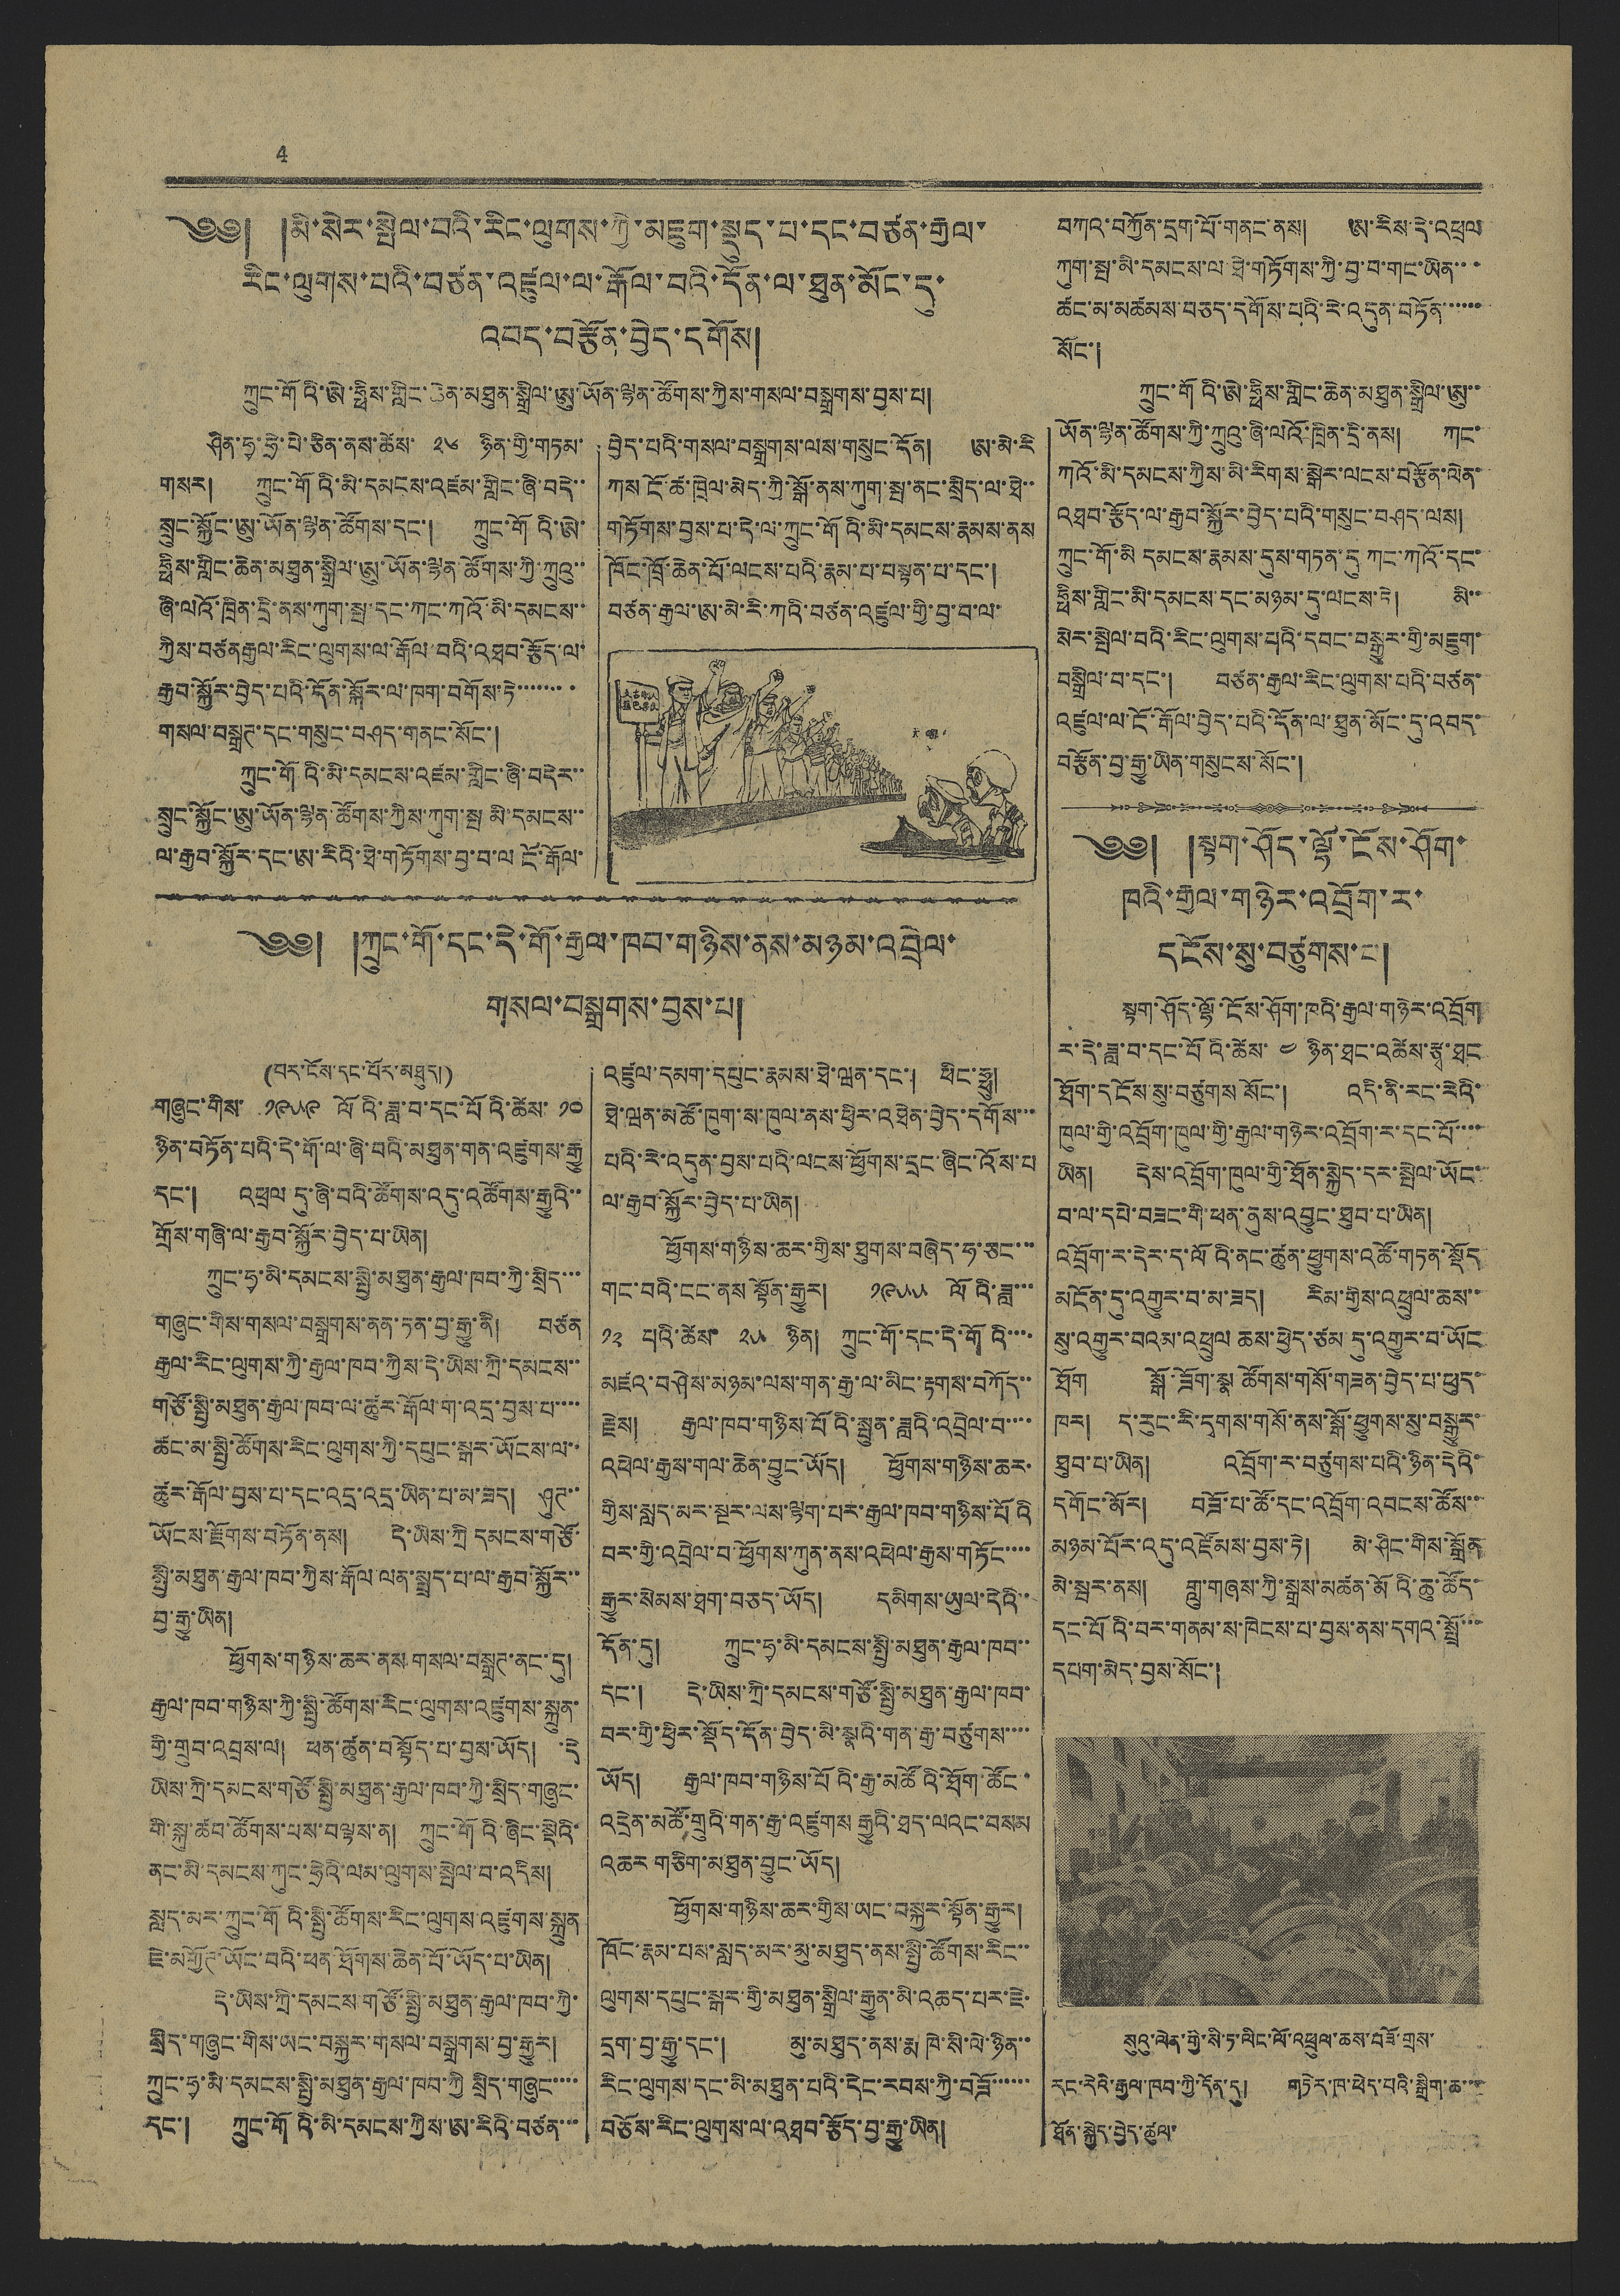4
༄༅། །མི་སེར་སྤེལ་བའི་རིང་ལུགས་ཀྱི་མཇུག་སྡུད་པ་དང་བཙན་རྒྱལ་
རིང་ལུགས་པའི་བཙན་འཛུལ་ལ་རྒོལ་བའི་དོན་ལ་ཐུན་མོང་དུ་
འབད་བརྩོན་བྱེད་དགོས།
ཀྲུང་གོའི་ཨེ་ཧྥིས་གླིང་ཆེན་མཐུན་སྒྲིལ་ཨུ་ཡོན་ལྷན་ཚོགས་ཀྱིས་གསལ་བསྒྲགས་བྱས་པ།
ཤིན་ཧྭ་ཧྲེ་པེ་ཅིན་ནས་ཚོས་ ༢༦ ཉིན་གྱི་གཏམ་
གསར། ཀྲུང་གོའི་མི་དམངས་འཛམ་གླིང་ཞི་བདེ་་
སྲུང་སྐྱོང་ཨུ་ཡོན་ལྷན་ཚོགས་དང་། ཀྲུང་གོའི་ཨེ་
ཧྥིས་གླིང་ཆེན་མཐུན་སྒྲིལ་ཨུ་ཡོན་ལྷན་ཚོགས་ཀྱི་ཀྲུའུ་་
ཞི་ལའོ་ཁྲིན་དྲི་ནས་ཀུག་སྤ་དང་ཀང་ཀའོ་མི་དམངས་་
ཀྱིས་བཙན རྒྱལ་རིང་ལུགས་ལ་རྒོལ་བའི་འཐབ་རྩོད་ལ་
རྒྱབ་སྐྱོར་བྱེད་པའི་དོན་སྐོར་ལ་ཁག་བགོས་ཏེ་་་་་་་་
གསལ་བསྒྲཊ་དང་གསུང་བཤད་གནང་སོང་།
ཀྲུང་གོའི་མི་དམངས་འཛམ་གླིང་ཞི་བདེར་་
སྲུང་སྐྱོང་ཨུ་ཡོན་ལྷན་ཚོགས་ཀྱིས་ཀུག་སྤ མི་དམངས་་
ལ་རྒྱབ་སྐྱོར་དང་ཨ་རིའི་ཐེ་གཏོགས་བྱ་བ་ལ ངོ་རྒོལ་
བྱེད་པའི་གསལ་བསྒྲགས་ལས་གསུང་དོན། ཨ་མེ་རི
ཀས ངོ་ཚ་ཁྲེལ་མེད་ཀྱི་སྒོ་ནས་ཀུག་སྤ་ནང་སྲིད་ལ་ཐེ་་
གཏོགས་བྱས་པ་དེ་ལ་ཀྲུང་གོའི་མི་དམངས་རྣམས་ནས
ཁོང་ཁྲོ་ཆེན་པོ་ལངས་པའི་རྣམ་པ་བསྟན་པ་དང་།
བཙན་རྒྱལ་ཨ་མེ་རི་ཀའི་བཙན་འཛུལ་གྱི་བྱ་བ་ལ་
བཀའ་བཀྱོན་དྲག་པོ་གནང་ནས། ཨ་རིས་དེ་འཕྲལ
ཀུག་སྤ་མི་དམངས་ལ་ཐེ་གཏོགས་ཀྱི་བྱ་བ་གང་ཡིན་་་
ཚང་མ་མཚམས་བཅད་དགོས་པའི་རེ་འདུན་བཏོན་་་་་་
སོང་།
ཀྲུང་གོའི་ཨེ་ཧྥིས་གླིང་ཆེན་མཐུན་སྒྲིལ་ཨུ་་
ཡོན་ལྷན་ཚོགས་ཀྱི་ཀྲུའུ་ཞི་ལའོ་ཁྲིན་དྲི་ནས། ཀང་
ཀའོ་མི་དམངས་ཀྱིས་མི་རིགས་སྒེར་ལངས་བརྩོན་ལེན་
འཐབ་རྩོད་ལ་རྒྱབ་སྐྱོར་བྱེད་པའི་གསུང་བཤད་ལས།
ཀྲུང་གོ་མི དམངས་རྣམས་དུས་གཏན་དུ ཀང་ཀའོ་དང་
ཧྥིས་གླིང་མི་དམངས་དང་མཉམ་དུ་ལངས་ཏེ། མི་་
སེར་སྤེལ་བའི་རིང་ལུགས་པའི་དབང་བསྒྱུར་གྱི་མཇུག་
བསྒྲིལ་བ་དང་། བཙན་རྒྱལ་རིང་ལུགས་པའི་བཙན་
འཛུལ་ལ་ངོ་རྒོལ་བྱེད་པའི་དོན་ལ་ཐུན་མོང་དུ་འབད་
བརྩོན་བྱ་རྒྱུ་ཡིན་གསུངས་སོང་།
༄༅། །ཀྲུང་གོ་དང་དེ་གོ་རྒྱལ་ཁབ་གཉིས་ནས་མཉམ་འབྲེལ་
གསལ་བསྒྲགས་བྱས་པ།
(པར་ངོས་དང་པོར་མཐུད།)
གཞུང་གིས་ ༡༩༥༩ ལོའི་ཟླ་བ་དང་པོའི་ཚེས་ ༡༠
ཉིན་བཏོན་པའི་དེ་གོ་ལ་ཞི་བའི་མཐུན་གན་འཛུགས་རྒྱུ
དང་། འཕྲལ་དུ་ཞི་བའི་ཚོགས་འདུ་འཚོགས་རྒྱུའི་་
གྲོས་གཞི་ལ་རྒྱབ་སྐྱོར་བྱེད་པ་ཡིན།
ཀྲུང་ཧྭ་མི་དམངས་སྤྱི་མཐུན་རྒྱལ་ཁབ་ཀྱི་སྲིད་་་
གཞུང་གིས་གསལ་བསྒྲགས་ནན་ཏན་བྱ་རྒྱུ་ནི། བཙན
རྒྱལ་རིང་ལུགས་ཀྱི་རྒྱལ་ཁབ་ཀྱིས་དེ་ཡིས་ཀྲི་དམངས་་
གཙོ་སྤྱི་མཐུན་རྒྱལ་ཁབ་ལ་ཚུར་རྒོལ་ག་འདྲ་བྱས་པ་་་་
ཚང་མ་སྤྱི་ཚོགས་རིང་ལུགས་ཀྱི་དཔུང་སྒར་ཡོངས་ལ་་
ཚུར་རྒོལ་བྱས་པ་དང་འདྲ་འདྲ་ཡིན་པ་མ་ཟད། ཤུཊ་་
ཡོངས་རྫོགས་བཏོན་ནས། དེ་ཡིས་ཀྲི དམངས་གཙོ་
སྤྱི་མཐུན་རྒྱལ་ཁབ་ཀྱིས་རྒོལ་ལན་སྤྲད་པ་ལ་རྒྱབ་སྐྱོར་་
བྱ་རྒྱུ་ཡིན།
ཕྱོགས་གཉིས་ཆར་ནས གསལ་བསྒྲཊ་ནང་དུ།
རྒྱལ་ཁབ་གཉིས་ཀྱི་སྤྱི་ཚོགས་རིང་ལུགས་འཛུགས་སྐྲུན་
གྱི་གྲུབ་འབྲས་ལ། ཕན་ཚུན་བསྟོད་པ་བྱས་ཡོད། ་དེ
ཡིས་ཀྲི་དམངས་གཙོ་སྤྱི་མཐུན་རྒྱལ་ཁབ་ཀྱི་སྲིད་གཞུང་
གི་སྐུ་ཚབ་ཚོགས་པས་བསྟས་ན། ཀྲུང་གོའི་ཞིང་སྡེའི་
ནང་མི་དམངས་ཀུང་ཧྲེའི་ལམ་ལུགས་སྤེལ་བ་འདིས།
སླད་མར་ཀྲུང་གོའི་སྤྱི་ཚོགས་རིང་ལུགས་འཛུགས་སྐྲུན
ཇེ་མགྱོཊ་ཡོང་བའི་ཕན་ཐོགས་ཆེན་པོ་ཡོད་པ་ཡིན།
དེ་ཡིས་ཀྲི་དམངས་གཙོ་སྤྱི་མཐུན་རྒྱལ་ཁབ་ཀྱི་
སྲིད་གཞུང་གིས་ཡང་བསྐྱར་གསལ་བསྒྲགས་བྱ་རྒྱུར།
ཀྲུང་ཧྭ་མི་དམངས་སྤྱི་མཐུན་རྒྱལ་ཁབ་ཀྱི སྲིད་གཞུང་་་་
དང་། ཀྲུང་གོའི་མི་དམངས་ཀྱིས་ཨ་རིའི་བཙན་་་
འཛུལ་དམག་དཔུང་རྣམས་ཐེ་ཝན་དང་། ཕིང་ཧྥུ།
ཐེ་ཝན་མཚོ་ཁུག་ས་ཁུལ་ནས་ཕྱིར་འཐེན་བྱེད་དགོས་་་
པའི་རེ་འདུན་བྱས་པའི་ལངས་ཕྱོགས་དྲང་ཞིང་འོས་པ
ལ་རྒྱབ་སྐྱོར་བྱེད་པ་ཡིན།
ཕྱོགས་གཉིས་ཆར་གྱིས་ཐུགས་བཞེད་ཧ་ཅང་་་
གང་བའི་ངང་ནས སྟོན་རྒྱུར། ༡༩༥༥ ལོའི་ཟླ་་་
༡༢ པའི་ཚེས་ ༢༥ ཉིན། ཀྲུང་གོ་དང་དེ་གོའི་་་་
མཛའ་བཤེས་མཉམ་ལས་གན་རྒྱ་ལ་མིང་རྟགས་བཀོད་་
རྗེས། རྒྱལ་ཁབ་གཉིས་པོའི་སྤུན་ཟླའི་འབྲེལ་བ་་་་
འཕེལ་རྒྱས་གལ་ཆེན་བྱུང་ཡོད། ཕྱོགས་གཉིས་ཆར་
གྱིས་སླད་མར་སྔར་ལས་ལྷག་པར་རྒྱལ་ཁབ་གཉིས་པོའི
བར་གྱི་འབྲེལ་བ་ཕྱོགས་ཀུན་ནས་འཕེལ་རྒྱས་གཏོང་་་་
རྒྱུར་སེམས་ཐག་བཅད་ཡོད། དམིགས་ཡུལ་དེའི་་
དོན་དུ། ཀྲུང་ཧྭ་མི་དམངས་སྤྱི་མཐུན་རྒྱལ་ཁབ་་
དང་། དེ་ཡིས་ཀྲི་དམངས་གཙོ་སྤྱི་མཐུན་རྒྱལ་ཁབ་
བར་གྱི་ཕྱིར་སྡོད་དོན་བྱེད་མི་སྣའི་གན་རྒྱ་བཙུགས་་་་
ཡོད། རྒྱལ་ཁབ་གཉིས་པོའི་རྒྱ་མཚོའི་ཐོག་ཚོང་
འདྲེན་མཚོ་གྲུའི་གན་རྒྱ་འཛུགས་རྒྱུའི་ཐད་ལའང་བསམ
འཆར་གཅིག་མཐུན་བྱུང་ཡོད།
ཕྱོགས་གཉིས་ཆར་གྱིས་ཡང་བསྐྱར་སྟོན་རྒྱུར།
ཁོང་རྣམ་པས་སླད་མར་མུ་མཐུད་ནས་སྤྱི་ཚོགས་རིང་་
ལུགས་དཔུང་སྒར་གྱི་མཐུན་སྒྲིལ་རྒྱུན་མི་འཆད་པར་ཇེ་
དྲག་བྱ་རྒྱུ་དང་། མུ་མཐུད་ནས་རྨ ཁེ་སི་ལེ་ཉིན་་
རིང་ལུགས་དང་མི་མཐུན་པའི་དེང་རབས་ཀྱི་བཟོ་་་་་་
བཅོས་རིང་ལུགས་ལ་འཐབ་རྩོད་བྱ་རྒྱུ་ཡིན།
༄༅། །སྟག་ཤོད་ལྷོ་ངོས་ཤོག་
ཁའི་རྒྱལ་གཉེར་འབྲོག་ར་
དངོས་སུ་བཙུགས་པ།
སྟག་ཤོད་ལྷོ་ངོས་ཤོག་ཁའི་རྒྱལ་གཉེར་འབྲོག
ར་དེ་ཟླ་བ་དང་པོའི་ཚེས་ ༤ ཉིན་ཐང་འཚེས་རྩྭ་ཐང
ཐོག་དངོས་སུ་བཙུགས སོང་། འདི་ནི་རང་རེའི་
ཁུལ་གྱི་འབྲོག་ཁུལ་གྱི་རྒྱལ་གཉེར་འབྲོག་ར་དང་པོ་་་་
ཡིན། དེས་འབྲོག་ཁུལ་གྱི་ཐོན་སྐྱེད་དར་སྤེལ་ཡོང་་
བ་ལ་དཔེ་བཟང་གི་ཕན་ནུས་འབྱུང་ཐུབ་པ་ཡིན།
འབྲོག་ར་དེར་ད་ལོའི་ནང་ཚུན་ཕྱུགས་འཚོ་གཏན་སྡོད
མངོན་དུ་འགྱུར་བ་མ་ཟད། རིམ་གྱིས་འཕྲུལ་ཆས་་
སུ་འགྱུར་བའམ་འཕྲུལ ཆས་ཕྱེད་ཙམ་དུ་འགྱུར་བ་ཡོང
ཐོག སྒོ་ཟོག་སྣ་ཚོགས་གསོ་གཟན་བྱེད་པ་ཕུད་
ཁར། ད་རུང་རི་དྭགས་གསོ་ནས་སྒོ་ཕྱུགས་སུ་བསྒྱུར་་
ཐུབ་པ་ཡིན། འབྲོག་ར་བཙུགས་པའི་ཉིན་དེའི་
དགོང་མོར། བཟོ་པ་ཚོ་དང་འབྲོག་འབངས་ཚོས་་
མཉམ་པོར་འདུ་འཛོམས་བྱས་ཏེ། མེ་ཤིང་གིས་སྒྲོན
མེ་སྦར་ནས། གླུ་གཞས་ཀྱི་སྒྲས་མཚན་མོའི་ཆུ་ཚོད་
དང་པོའི་བར་གནམ་ས་ཁེངས་པ་བྱས་ནས་དགའ་སྤྲོ་་་
དཔག་མེད་བྱས་སོང་།
སུའུ་ལེན་གྱི་སི་ཏ་ལིང་ལོ་འཕྲུལ་ཆས་བཟོ་གྲས་
རང་རེའི་རྒྱལ་ཁབ་ཀྱི་དོན་དུ། གཏེར་ཁ་ཕེད་པའི་སྒྲིག་ཆ་་་
ཐོན་སྐྱེད་བྱེད་ཚུལ་
